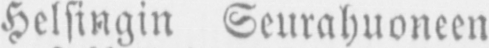Helsingin Seurahuoneen
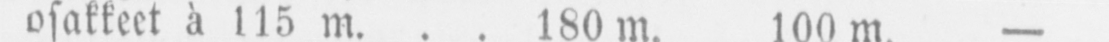osakkeet à 115m. . .180m 100m.-
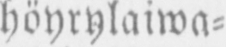höyrylaiwa-
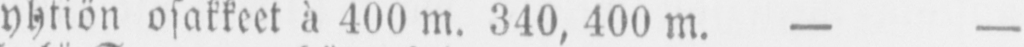yhtiön osakkeet à 400m. 340, 400m. — —
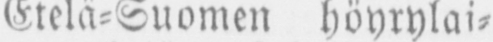Etelä-Suomen höyrylai-
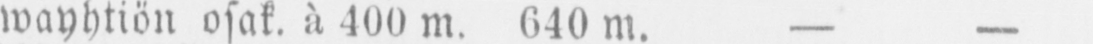wayhtiön osak. à 400m. 640m.--
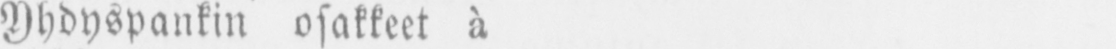Yhdyspankin osakkeet à
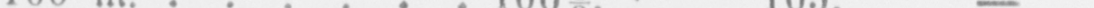100 m. ...... 106%. 105.-
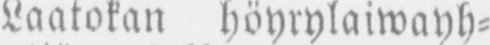Laatokan höyrylaiwayh-
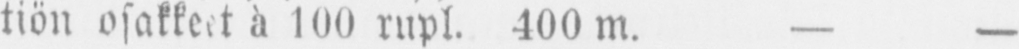tiön osakkeet à 100 rupl. 400m. — —
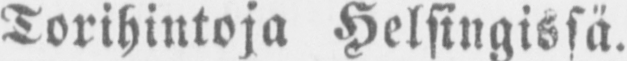Torihintoja Helsingissä.
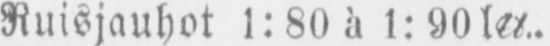Ruisjauhot 1:80 à 1:90 l:90 l+U+2114.
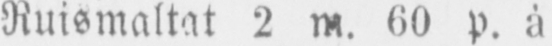Ruismaltat 2 m. 60 p. à
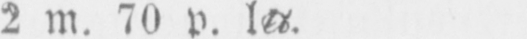2 m. 70 p. l+U+2114,
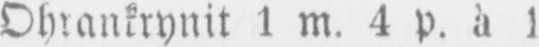Ohrankrynit 1 m. 4 p. ä l
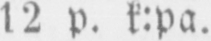12 p. k:pa.
